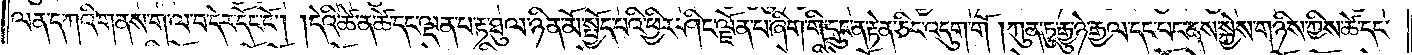ལན་ད་ཀའི་གནས་ག་ལ་བ་དེར་དོང་ངོ༌། །དེའི་ཚེ་ན་ཚེ་དང་ལྡན་པ་རྟ་ཐུལ་ཉིན་མོ་སྤྱོད་པའི་ཕྱིར་ཤིང་ལྗོན་པ་ཞིག་གི་དྲུང་ན་རྟེན་ཅིང་འདུག་གོ །ཀུན་ཏུ་རྒྱུ་ཉེ་རྒྱལ་དང་པང་ནས་སྐྱེས་གཉིས་ཀྱིས་ཚེ་དང་
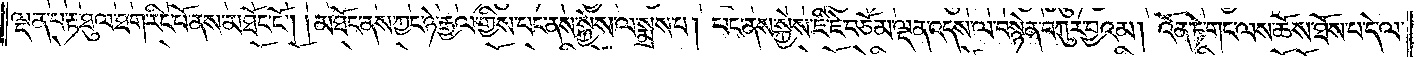ལྡན་པ་རྟ་ཐུལ་ཐག་རིང་པོ་ནས་མཐོང་ངོ༌། །མཐོང་ནས་ཀྱང་ཉེ་རྒྱལ་གྱིས་པང་ནས་སྐྱེས་ལ་སྨྲས་པ། པང་ནས་སྐྱེས་ཇི་ཇེ་བཅོམ་ལྡན་འདས་ལ་བསྙེན་བཀུར་བྱའམ། འོན་ཏེ་གང་ལས་ཆོས་ཐོས་པ་དེ་ལ་
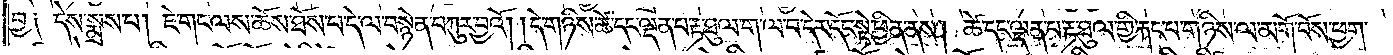བྱ༑ དེས་སྨྲས་པ། ཇེ་གང་ལས་ཆོས་ཐོས་པ་དེ་ལ་བསྙེན་བཀུར་བྱའོ། །དེ་གཉིས་ཚེ་དང་ལྡན་པ་རྟ་ཐུལ་ག་ལ་བ་དེར་དོང་སྟེ་ཕྱིན་ནས། ཚེ་དང་ལྡན་པ་རྟ་ཐུལ་གྱི་རྐང་པ་གཉིས་ལ་མགོ་བོས་ཕྱག་
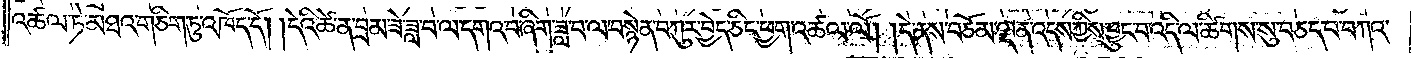འཚལ་ཏེ་མཐའ་གཅིག་ཏུ་འཁོད་དོ། །དེའི་ཚེ་ན་བྲམ་ཟེ་ཟླ་བ་ལ་དགའ་བ་ཞིག་ཟླ་བ་ལ་བསྙེན་བཀུར་བྱེད་ཅིང་ཕྱག་འཚལ་ལོ། །དེ་ནས་བཅོམ་ལྡན་འདས་ཀྱིས་བྱུང་བ་འདི་ལ་ཚིགས་སུ་བཅད་པ་བཀའ་
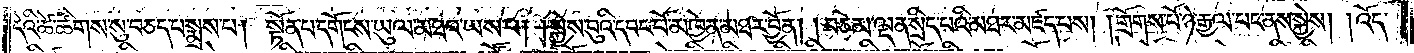དེའི་ཚེ་ཚིགས་སུ་བཅད་པ་སྨྲས་པ། སྟོན་པ་དགོངས་ཡུལ་མཐའ་ཡས་པ། །སྐྱེས་བུའི་དབང་པོ་མཁྱེན་མཐར་བྱོན། །བཅོམ་ལྡན་སྲིད་པའི་མཐར་མཛད་པས། །གྲོགས་པོ་ཉེ་རྒྱལ་པང་ནས་སྐྱེས། །འོད་
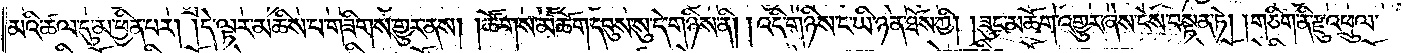མའི་ཚལ་དུ་མ་ཕྱིན་པར། །དེ་ལྟར་མཆིས་པ་གཟིགས་གྱུར་ནས། །ཚོགས་མཆོག་དབུས་སུ་དེ་གཉིས་ནི། །འདི་གཉིས་ང་ཡི་ཉན་ཐོས་ཀྱི། །ཟུང་མཆོག་འགྱུར་ཞེས་ངེས་བསྟན་ཏེ། །གཅིག་ནི་རྫུ་འཕྲུལ་
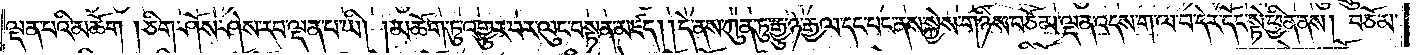ལྡན་པའི་མཆོག །ཅིག་ཤོས་ཤེས་རབ་ལྡན་པ་ཡི། །མཆོག་ཏུ་འགྱུར་བར་ལུང་བསྟན་མཛད། །དེ་ནས་ཀུན་ཏུ་རྒྱུ་ཉེ་རྒྱལ་དང་པང་ནས་སྐྱེས་གཉིས་བཅོམ་ལྡན་འདས་ག་ལ་བ་དེར་དོང་སྟེ་ཕྱིན་ནས། བཅོམ་
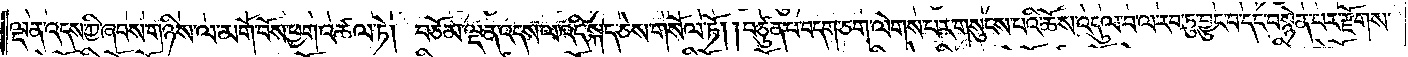ལྡན་འདས་ཀྱི་ཞབས་གཉིས་ལ་མགོ་བོས་ཕྱག་འཚལ་ཏེ། བཅོམ་ལྡན་འདས་ལ་འདི་སྐད་ཅེས་གསོལ་ཏོ། །བཙུན་པ་བདག་ཅག་ལེགས་པར་གསུངས་པའི་ཆོས་འདུལ་བ་ལ་རབ་ཏུ་བྱུང་བ་དང་བསྙེན་པར་རྫོགས་
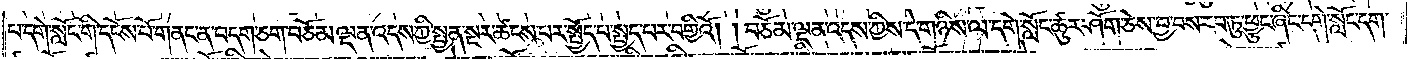པ་དགེ་སློང་གི་དངོས་པོ་གནང་ན་བདག་ཅག་བཅོམ་ལྡན་འདས་ཀྱི་སྤྱན་སྔར་ཚངས་པར་སྤྱོད་པ་སྤྱད་པར་བགྱིའོ། །བཅོམ་ལྡན་འདས་ཀྱིས་དེ་གཉིས་ལ་དགེ་སློང་ཚུར་ཤོག་ཅེས་བྱ་བས་རབ་ཏུ་ཕྱུང་ཞིང་དགེ་སློང་དག་
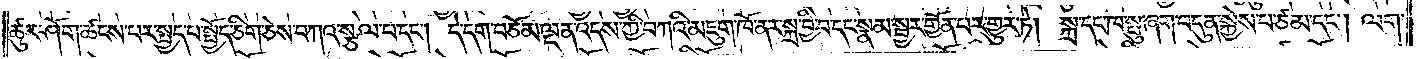ཚུར་ཤོག་ཚངས་པར་སྤྱད་པ་སྤྱོད་ཅིག་ཅེས་བཀའ་སྩལ་པ་དང༌། དེ་དག་བཅོམ་ལྡན་འདས་ཀྱི་བཀའི་མཇུག་ཁོ་ནར་སྐྲ་བྱི་བ་དང་སྣམ་སྦྱར་གྱོན་པར་གྱུར་ཏེ། སྐྲ་དང་ཁ་སྤུ་ཞག་བདུན་སྐྱེས་པ་ཙམ་དང༌། ལག་
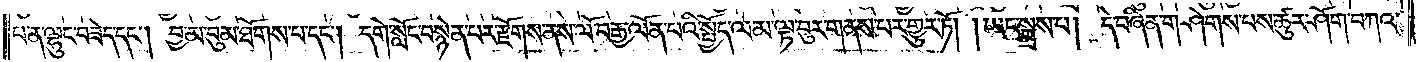པ་ན་ལྷུང་བཟེད་དང༌། བྱ་མ་བུམ་ཐོགས་པ་དང༌། དགེ་སློང་བསྙེན་པར་རྫོགས་ནས་ལོ་བརྒྱ་ལོན་པའི་སྤྱོད་ལམ་ལྟ་བུར་གནས་པར་གྱུར་ཏོ། །ཡང་སྨྲས་པ། དེ་བཞིན་གཤེགས་པས་ཚུར་ཤོག་བཀའ་
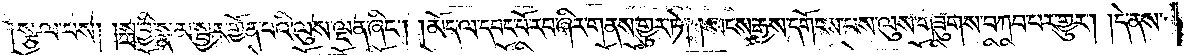སྩལ་པས། །སྐྲ་བྱི་སྣམ་སྦྱར་གྱོན་པའི་ལུས་ལྡན་ཞིང༌། །མོད་ལ་དབང་པོ་རབ་ཞིར་གནས་གྱུར་ཏེ། །སངས་རྒྱས་དགོངས་པས་ལུས་གཟུགས་བཀབ་པར་གྱུར། །དེ་ནས་
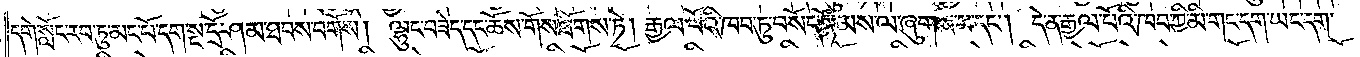དགེ་སློང་རབ་ཏུ་མང་པོ་དག་སྔ་དྲོ་ཤམ་ཐབས་བགོས། ལྷུང་བཟེད་དང་ཆོས་གོས་ཐོགས་ཏེ། རྒྱལ་པོའི་ཁབ་ཏུ་བསོད་སྙོམས་ལ་ཞུགས་པ་དང༌། དེ་ན་རྒྱལ་པོའི་ཁབ་ཀྱི་མི་གང་དག་ཡང་དག་
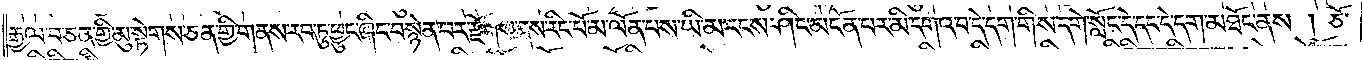རྒྱལ་བ་ཅན་གྱི་མུ་སྟེགས་ཅན་གྱི་གནས་རབ་ཏུ་ཕྱུང་ཞིང་བསྙེན་པར་རྫོགས་ནས་རིང་པོ་མ་ལོན་པས་ཡི་མ་རངས་ཤིང་མངོན་པར་མི་དགའ་བ་དེ་དག་གིས་དགེ་སློང་དེ་དང་དེ་དག་མཐོང་ནས། ཅོ་
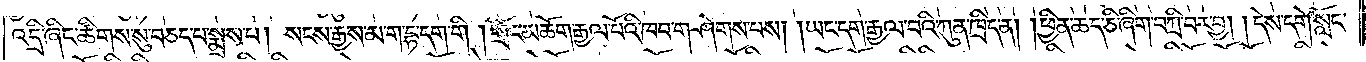འདྲི་ཞིང་ཚིགས་སུ་བཅད་པ་སྨྲས་པ། སངས་རྒྱས་མ་ག་དྷ་དག་གི །གྲོང་མཆོག་རྒྱལ་པོའི་ཁབ་གཤེགས་པས། །ཡང་དག་རྒྱལ་བའི་ཀུན་ཁྲིད་ན། །ཕྱིན་ཆད་ཅི་ཞིག་བཀྲི་བར་བྱ། །དེས་དགེ་སློང་
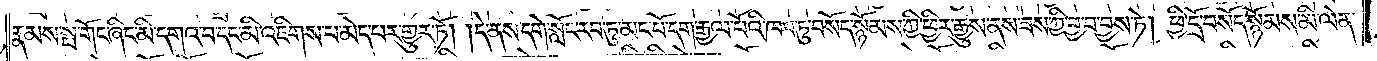རྣམས་སྤ་གོང་ཞིང་མི་དགའ་བ་དང་མི་འཇིགས་པ་མེད་པར་གྱུར་ཏོ། །དེ་ནས་དགེ་སློང་རབ་ཏུ་མང་པོ་དག་རྒྱལ་པོའི་ཁབ་ཏུ་བསོད་སྙོམས་ཀྱི་ཕྱིར་རྒྱུས་ནས་ཟས་ཀྱི་བྱ་བ་བྱས་ཏེ། ཕྱི་དྲོ་བསོད་སྙོམས་མི་ལེན་
